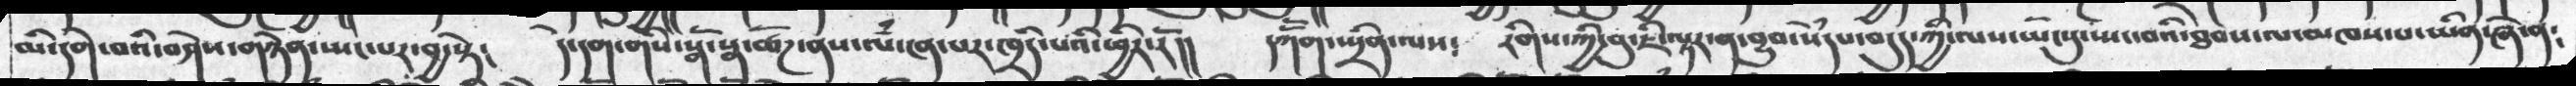མི་དགེ་བའི་བཤེས་གཉེན་སྤང་པར་བྱ་སྟེ༴  དེ་དག་གིས་སྒོ་སྣ་ཚོཌ་ནས་ལཾ་ངན་པར་ཁྲིད་པའི་ཕྱིར་རོ།།  དཀོོག་སྤྲིན་ལས༴  རིགས་ཀྱི་བུ་ཇི་ལྟར་ན་བྱུབ་སེཾདཔ་བདུད་ཀྱི་ལས་ཡོངསུ་སྤང་བའི་ཐབས་ལ་མཁས་པ་ཡིན་ཞེ་ན༴
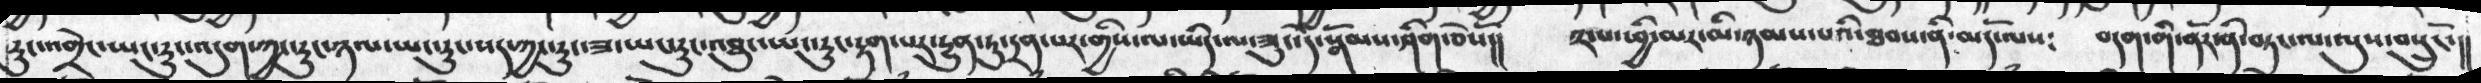རུང་འགྲེང་ཡང་རུང་འདུག་ཀྱང་རུང་ཉལ་ཡང་རུང་པར་ཀྱང་རུང་ཟ་ཡང་རུང་འཐུ་ཡང་རུང་རྟག་པར་རྱུན་ཏུ་དྲན་པར་གྱིས་ལ་ཡིད་ལ་ཟུང་དེ་སྒོམས་ཤིག་ཅེསོ།།  ༢་པ་ཕྱི་མར་མི་ཉམས་པའི་ཐབས་ནི་མདོ་ལས༴   བདག་གི་ནོར་ནི་བཏང་ལ་ལུས་བསྲུངོ་།།
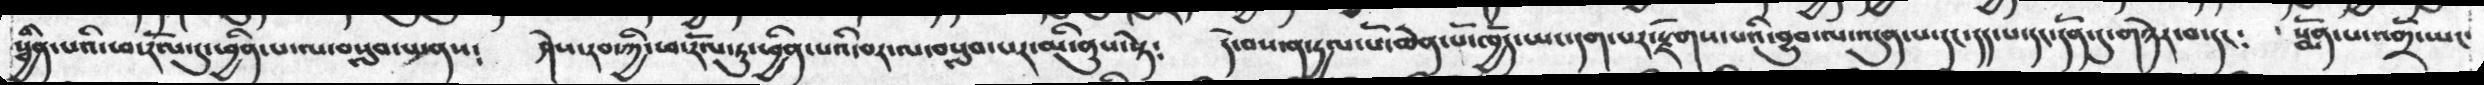སྦྱིན་པའི་ཕ་རོལ་དུ་ཕྱིན་པ་ལ་བསླབ་པ་ནས༴  ཤེས་རབ་ཀྱི་ཕ་རོལ་ཏུ་ཕྱིན་པའི་བར་ལ་བསླབ་པར་མི་ནུས་སྟེ༴   དེ་བས་ན་དྱལ་པོ་ཆེན་པོ་ཁྱོད་ཡང་དག་རྫོགས་པའི་བྱུབ་ལ་འདུན་པ་དང་དད་པ་དང་དོན་དུ་གཉེར་བ་དང༴   སྨོན་པ་འགྲོ་ཡང་
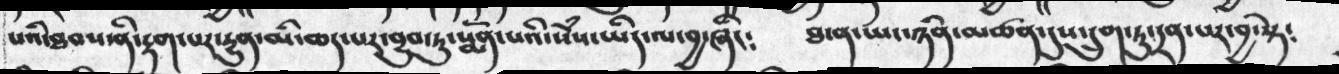པའི་ཐབས་ནི་རྟག་པར་རྱུན་མི་ཆད་པར་བྱུབ་ཏུ་སྨོན་པའི་སེཾས་ཡིད་ལ་བྱ་ཞིང༴   ཐ་ན་ཡང་ཉིན་མཚན་དུས་དྲུག་དྲན་པར་བྱ་སྟེ༴
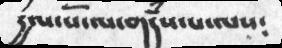དྱལ་པོ་ལ་གདཾས་པ་ལས༴
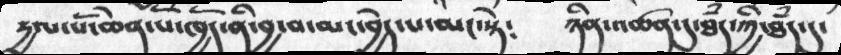དྱལ་པོ་ཆེན་པོ་ཁྱོད་ནི་བྱ་བ་མ་ཕྱེད་པ་མང་སྟེ༴  ཉིན་འཚན་དུ་ཐཾད་ཀྱི་ཐཾད་དུ་
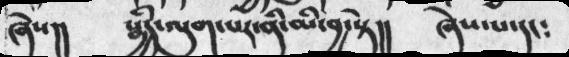ཞེས།།  སྒྱིད་ལུག་པར་ནི་མི་བྱ་སྟེ།།  ཞེས་པ་དང༴
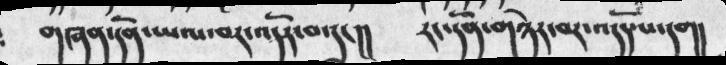གཞན་དོན་ཡལ་བར་འདོར་བ་དང།།  རང་དོན་གཉེར་བར་འདོད་པ་དག།
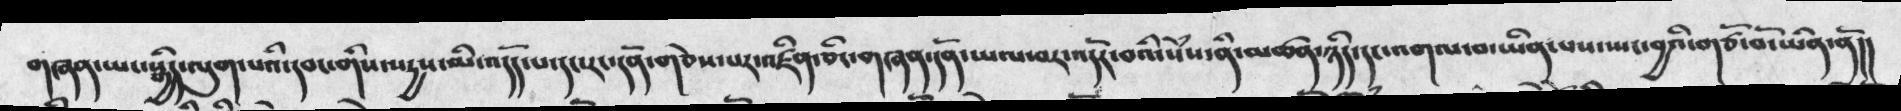གཞན་ཡད་སྒྱིད་ལུག་པའི་དབང་གིས་སདྱས་མི་འདོད་པ་དང་རང་དོན་གཅེས་པར་འཛིན་ཅིང་གཞན་དོན་ཡལ་བར་འདོར་བའི་སེཾས་ནི་མཚན་ཉིད་དང་འགལ་བ་ཡིད་པས་ཡང་བྱའི་གཙོ་བོ་ཡིན་ནོ།།
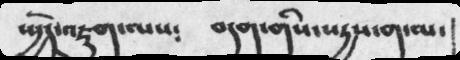སྤྱོད་འཇུག་ལས༴  བདག་གིས་སདྱས་ག་ལ་
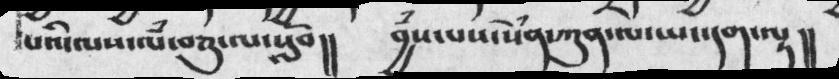པའི་ལས་ལཾ་བཅུ་ལ་སློབ།།  བྱཾས་པས་སེཾན་ཀུན་ལ་ཡང་དག་ལྟ།།
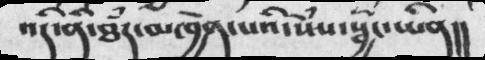འདི་ནི་ཐཾད་མཁྱེན་པའི་སེཾས་སྦྱོང་ཡིན།།
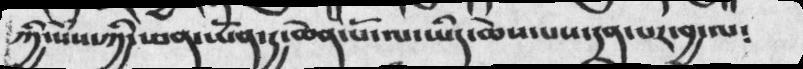ཀྱི་སེྃས་ཀྱི་ཕན་ཡོན་རྒྱ་ཆེན་པོ་ལ་ཡིད་ཆེས་པས་དྲན་པར་བྱ་ལ༴
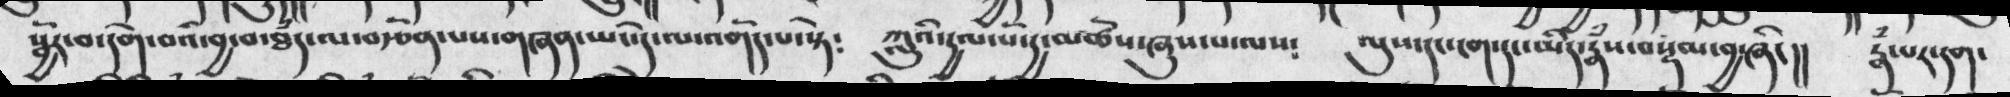སྦྱོར་བ་དགེ་བའི་བྱ་ཐཾད་ལ་བརྩོན་པས་གཞན་ཡང་དེ་ལ་འགོད་པ་སྟེ༴  ཀླུའི་རྒྱལ་པོ་རྒྱ་མཚོས་ཞུས་པ་ལས༴   ལུས་དང་ངག་དང་ཡིད་རྣཾས་བསྡམ་བྱ་ཞིང།།   རྣཾ་པར་དག་
